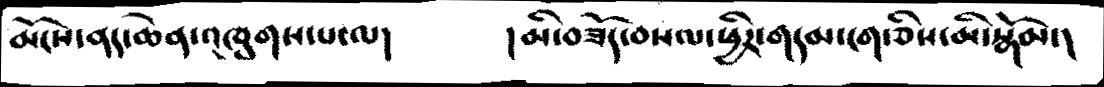མོངས་ནད་ཆེན་འཁྲུགས་པ་ལ།       ། མི་བཟོད་བསལ་ཕྱིར་གདམ་ངག་ཅིས་མི་སྒོམ་།
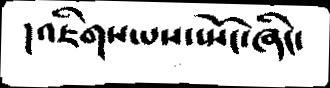། འཇིགས་པས་སྤོང་ཞིང་
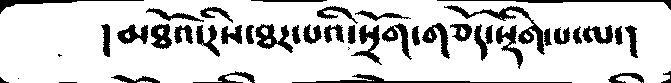། མཐོའ་རིས་ཐར་པའི་སྲོག་གཅོད་སྡིག་པ་ལ་།
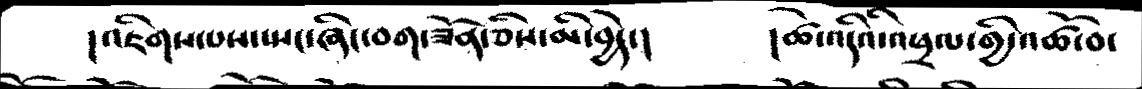།འཇིགས་པས་སྤང་ཞིང་བག་ཟོན་ཅིས་མི་བྱེད་།   །ཚེ་འདིའི་འཕྲལ་གྱི་འཚོ་བ་
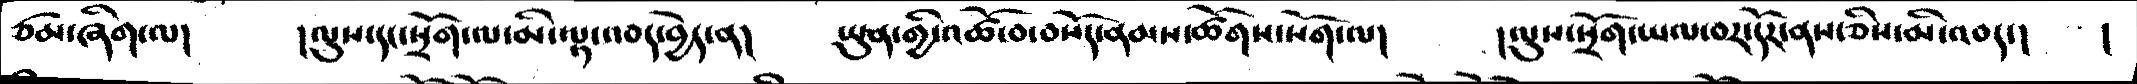ཙམ་ཞིག་ལ།   །ལུས་དང་སྲོག་ལ་མི་ལྟ་འབད་བྱེད་ན།    ཡུན་གྱི་འཚོ་བ་བསོད་ནམས་ཚོགས་སོག་ལ།   །ལུས་སྲོག་ཡལ་བར་དོར་ནས་ཅིས་མི་འབད་།  །
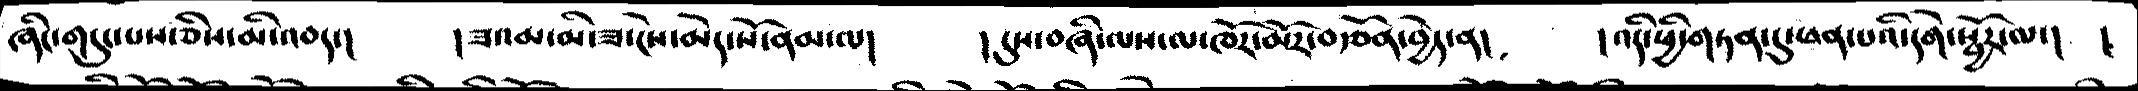ཞིང་གདུངས་པས་ཅིས་མི་འབད་།   །ཟའམ་མི་ཟ་ངེས་མེད་སོ་ནམ་ལ།   །དུས་བཞི་ལས་ལ་འཁོར་མོར་བརྩོན་བྱེད་ན།   །འདི་ཕྱི་གཏན་དུ་ཕན་པའི་དགེ་སྦྱོར་ལ་།  །
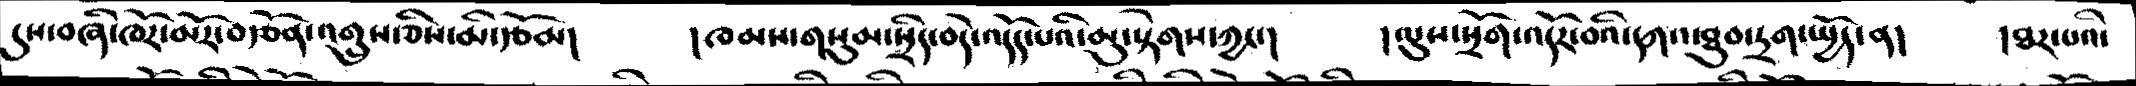དུས་བཞི་ཁོར་མོར་བརྩོན་འགྲུས་ཅིས་མི་རྩོམ།   །ཁམས་གསུམ་སྲིད་བདེ་འདོད་པའི་མུ་སྟེགས་ཀྱང་།   །ལུས་སྲོག་འདོར་བའི་དཀའ་ཐུབ་དྲག་སྤྱོད་ན།   ཐར་པའི་
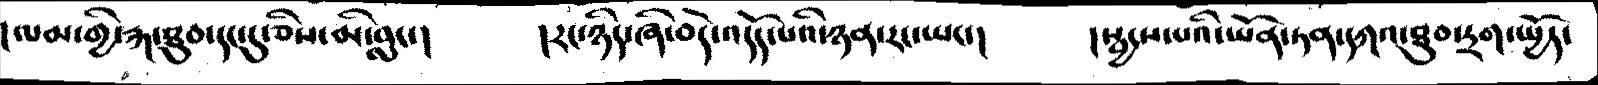།ལམ་གྱི་རྐ་ཐུབ་དང་དུ་ཅིས་མི་བླང་།   །རང་ཉིད་ཞི་བདེ་འདོད་པའི་ཉན་རང་ཡང་།   །སྦྱངས་པའི་ཡོན་ཏན་དཀའ་ཐུབ་དྲག་སྤྱོད་
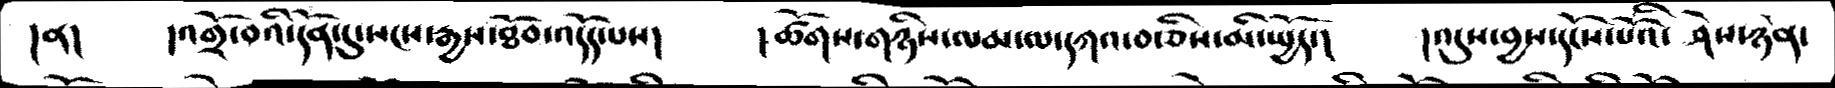།ན།   །འགྲོ་བའི་དོན་དུ་སངས་རྒྱས་ཐོབ་འདོད་པས།   །ཚོགས་གཉིས་ལམ་ལ་དཀའ་བ་ཅིས་མི་སྤྱོད་།    །འདུས་བྱས་དངོས་པོའི་ ཤེས་ཉེན་
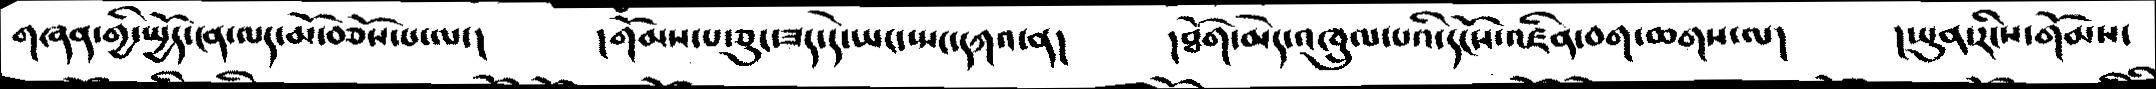གཞན་གྱི་སྤྱོད་ངན་ལད་མོ་བཅོས་པ་ལ་།     །གོམས་པ་ཅུང་ཟད་རེ་ཡང་སྤང་དཀའ་ན།   །ཐོག་མེད་འཁྲུལ་པའི་དངོས་འཛིན་བག་ཆགས་ལ།    །ཡུན་རིངས་གོམས་
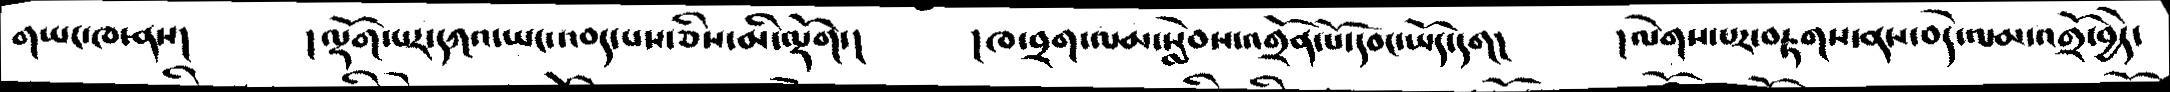གཡང་ཁ་ནས།    །ལྡོག་པར་དཀའ་ཡང་འབད་པས་ཅིས་མི་ལྡོག་།    །ཁ་བྲག་ལམ་སླེབས་འགྲོན་པོ་དབང་ཡོད་དག།   །ལེགས་པར་བརྟགས་ནས་བདེ་ལམ་འགྲོ་བྱེད་
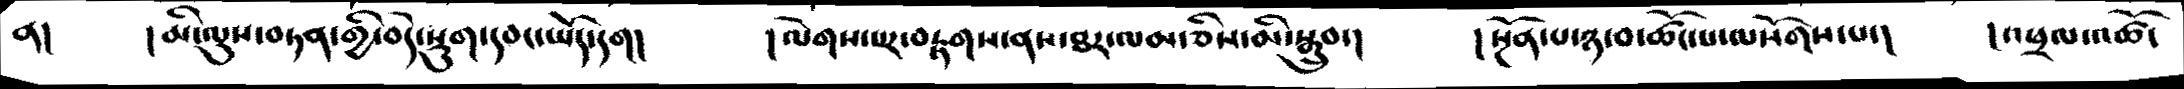ན།   །མི་ལུས་བཏན་གྱི་བདེ་སྡུག་དབང་ཡོད་དག།   །ལེགས་པར་བརྟགས་ནས་ཐར་ལམ་ཅིས་མི་སྒྲུབ་།   །སྔོན་པ་ཉ་བ་ཚོང་པ་ལསོགས་པ་།    །འཕྲལ་འཚོ་
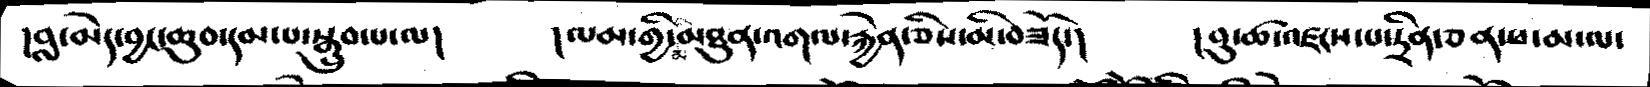།བླ་མེད་བྱང་ཆུབ་དམ་པ་སྒྲུབ་པ་ལ།   །ལམ་གྱི་མི་མཐུན་འགལ་རྐྱེན་ཅིས་མི་བཟོད་།   །བུ་ཚ་འཛངས་པ་དྲིན་ཅན་ཕ་མ་ལ་
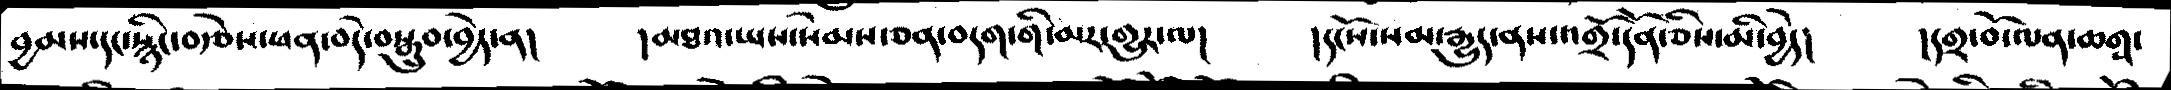བྱམས་དང་སྙིང་བརྩེས་ཕན་བདེ་བསྒྲུབ་བྱེད་ན།   །མཐའ་ཡས་སེམས་ཅན་བདག་གི་མར་གྱུར་ལ།   །དངོས་སམ་རྒྱུད་ནས་འགྲོ་དོན་ཅིས་མི་བྱེད།   །དགྲ་བོ་ལན་ཆགྶ་
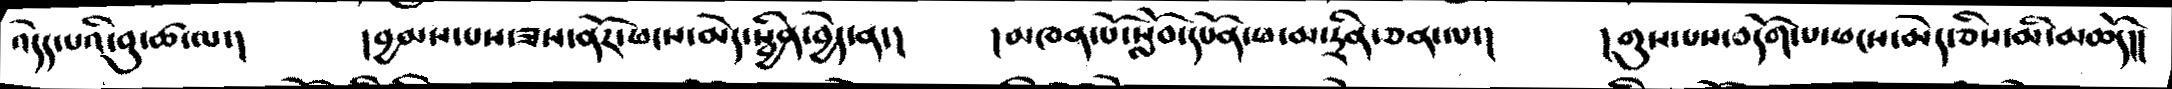འདེད་པའི་བུ་ཚ་ལ་།   །བྱམས་པས་ཟས་ནོར་ཕངས་མེད་སྦྱིན་བྱེད་ན་།   །མཁན་པོ་སློབ་དཔོན་ཕ་མ་དྲིན་ཅན་ལ་།    །གུས་པས་བདོག་པ་ཕངས་མེད་ཅིས་མི་མཆོད།།
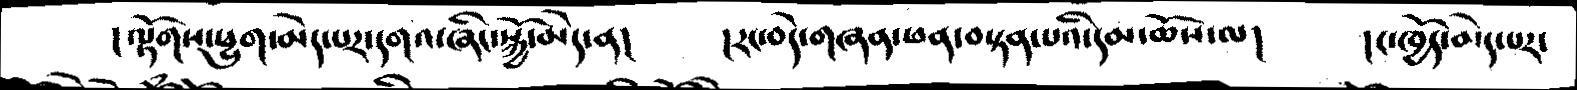།ལྟོགས་ཕྱུག་མེད་པར་དགའ་ཞིང་སྐྱོམེད་ན།    །རང་བདེ་གཞན་ཕན་བསྟན་པའི་དམ་ཆོས་ལ།    །ང་ཁྱོད་མེད་པར་
